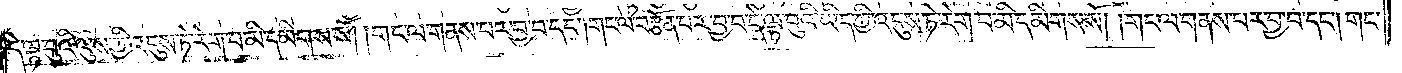དེ་ལྟ་བུའི་ལུས་ཀྱི་འདུས་ཏེ་རེག་པ་མི་དམིགས་སོ། །གང་ལ་གནས་པར་བྱ་བ་དང༌། གང་ལ་བརྩོན་པར་བྱ་བ་དེ་ལྟ་བུའི་ཡིད་ཀྱི་འདུས་ཏེ་རེག་པ་མི་དམིགས་སོ། །གང་ལ་གནས་པར་བྱ་བ་དང༌། གང་
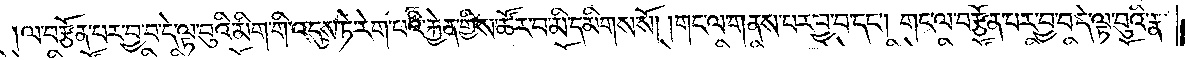ལ་བརྩོན་པར་བྱ་བ་དེ་ལྟ་བུའི་མིག་གི་འདུས་ཏེ་རེག་པའི་རྐྱེན་གྱིས་ཚོར་བ་མི་དམིགས་སོ། །གང་ལ་གནས་པར་བྱ་བ་དང༌། གང་ལ་བརྩོན་པར་བྱ་བ་དེ་ལྟ་བུའི་རྣ་
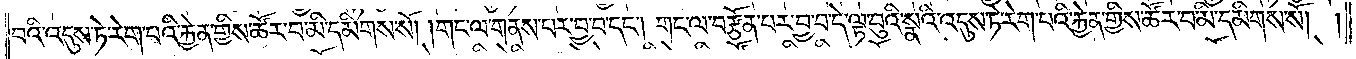བའི་འདུས་ཏེ་རེག་པའི་རྐྱེན་གྱིས་ཚོར་བ་མི་དམིགས་སོ། །གང་ལ་གནས་པར་བྱ་བ་དང༌། གང་ལ་བརྩོན་པར་བྱ་བ་དེ་ལྟ་བུའི་སྣའི་འདུས་ཏེ་རེག་པའི་རྐྱེན་གྱིས་ཚོར་བ་མི་དམིགས་སོ། །
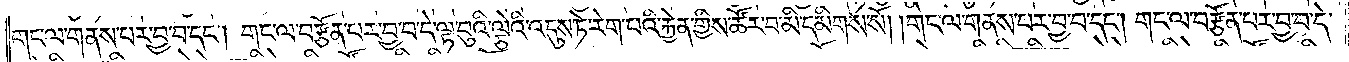གང་ལ་གནས་པར་བྱ་བ་དང༌། གང་ལ་བརྩོན་པར་བྱ་བ་དེ་ལྟ་བུའི་ལྕེའི་འདུས་ཏེ་རེག་པའི་རྐྱེན་གྱིས་ཚོར་བ་མི་དམིགས་སོ། །གང་ལ་གནས་པར་བྱ་བ་དང༌། གང་ལ་བརྩོན་པར་བྱ་བ་དེ་
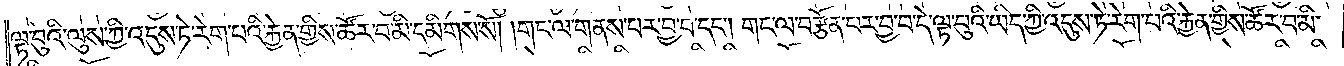ལྟ་བུའི་ལུས་ཀྱི་འདུས་ཏེ་རེག་པའི་རྐྱེན་གྱིས་ཚོར་བ་མི་དམིགས་སོ། །གང་ལ་གནས་པར་བྱ་བ་དང༌། གང་ལ་བརྩོན་པར་བྱ་བ་དེ་ལྟ་བུའི་ཡིད་ཀྱི་འདུས་ཏེ་རེག་པའི་རྐྱེན་གྱིས་ཚོར་བ་མི་
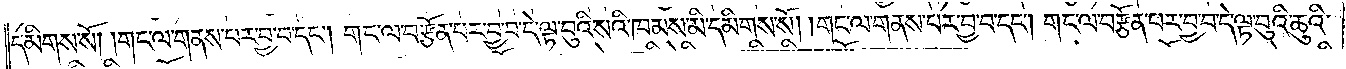དམིགས་སོ། །གང་ལ་གནས་པར་བྱ་བ་དང༌། གང་ལ་བརྩོན་པར་བྱ་བ་དེ་ལྟ་བུའི་སའི་ཁམས་མི་དམིགས་སོ། །གང་ལ་གནས་པར་བྱ་བ་དང༌། གང་ལ་བརྩོན་པར་བྱ་བ་དེ་ལྟ་བུའི་ཆུའི་
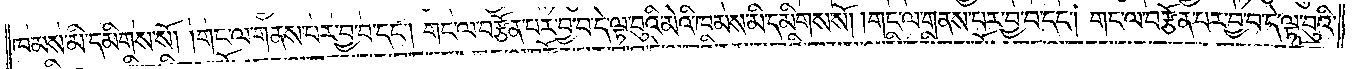ཁམས་མི་དམིགས་སོ། །གང་ལ་གནས་པར་བྱ་བ་དང༌། གང་ལ་བརྩོན་པར་བྱ་བ་དེ་ལྟ་བུའི་མེའི་ཁམས་མི་དམིགས་སོ། །གང་ལ་གནས་པར་བྱ་བ་དང༌། གང་ལ་བརྩོན་པར་བྱ་བ་དེ་ལྟ་བུའི་
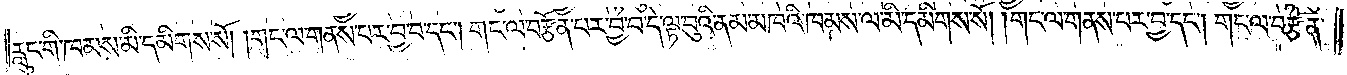རླུང་གི་ཁམས་མི་དམིགས་སོ། །གང་ལ་གནས་པར་བྱ་བ་དང༌། གང་ལ་བརྩོན་པར་བྱ་བ་དེ་ལྟ་བུའི་ནམ་མཁའི་ཁམས་མི་དམིགས་སོ། །གང་ལ་གནས་པར་བྱ་བ་དང༌། གང་ལ་བརྩོན་
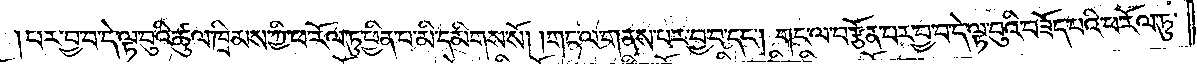པར་བྱ་བ་དེ་ལྟ་བུའི་ཚུལ་ཁྲིམས་ཀྱི་ཕ་རོལ་ཏུ་ཕྱིན་པ་མི་དམིགས་སོ། །གང་ལ་གནས་པར་བྱ་བ་དང༌། གང་ལ་བརྩོན་པར་བྱ་བ་དེ་ལྟ་བུའི་བཟོད་པའི་ཕ་རོལ་ཏུ་
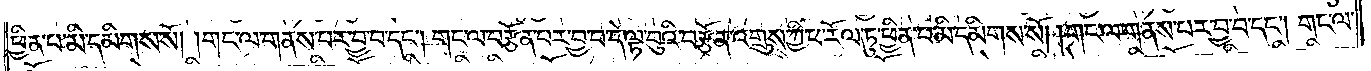ཕྱིན་པ་མི་དམིགས་སོ། །གང་ལ་གནས་པར་བྱ་བ་དང༌། གང་ལ་བརྩོན་པར་བྱ་བ་དེ་ལྟ་བུའི་བརྩོན་འགྲུས་ཀྱི་ཕ་རོལ་ཏུ་ཕྱིན་པ་མི་དམིགས་སོ། །གང་ལ་གནས་པར་བྱ་བ་དང༌། གང་ལ་
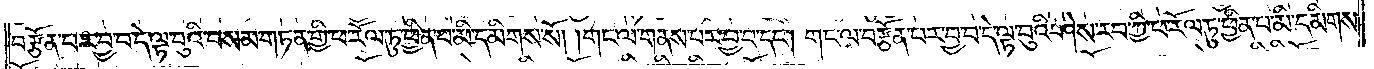བརྩོན་པར་བྱ་བ་དེ་ལྟ་བུའི་བསམ་གཏན་གྱི་ཕ་རོལ་ཏུ་ཕྱིན་པ་མི་དམིགས་སོ། །གང་ལ་གནས་པར་བྱ་བ་དང༌། གང་ལ་བརྩོན་པར་བྱ་བ་དེ་ལྟ་བུའི་ཤེས་རབ་ཀྱི་ཕ་རོལ་ཏུ་ཕྱིན་པ་མི་དམིགས་
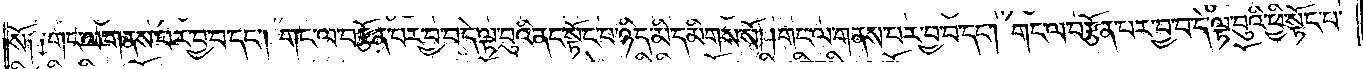སོ༑ ༑གང་ལ་གནས་པར་བྱ་བ་དང༌། གང་ལ་བརྩོན་པར་བྱ་བ་དེ་ལྟ་བུའི་ནང་སྟོང་པ་ཉིད་མི་དམིགས་སོ། །གང་ལ་གནས་པར་བྱ་བ་དང༌། གང་ལ་བརྩོན་པར་བྱ་བ་དེ་ལྟ་བུའི་ཕྱི་སྟོང་པ་
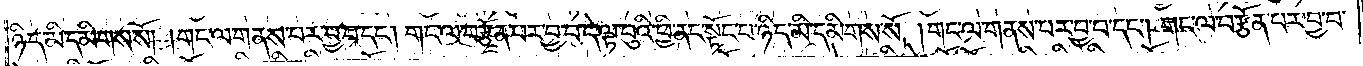ཉིད་མི་དམིགས་སོ། །གང་ལ་གནས་པར་བྱ་བ་དང༌། གང་ལ་བརྩོན་པར་བྱ་བ་དེ་ལྟ་བུའི་ཕྱི་ནང་སྟོང་པ་ཉིད་མི་དམིགས་སོ། །གང་ལ་གནས་པར་བྱ་བ་དང༌། གང་ལ་བརྩོན་པར་བྱ་བ་
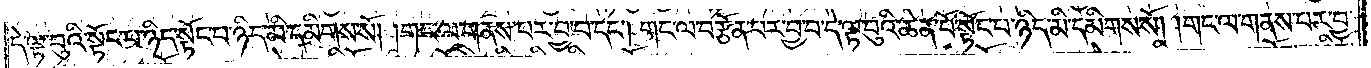དེ་ལྟ་བུའི་སྟོང་པ་ཉིད་སྟོང་པ་ཉིད་མི་དམིགས་སོ། །གང་ལ་གནས་པར་བྱ་བ་དང༌། གང་ལ་བརྩོན་པར་བྱ་བ་དེ་ལྟ་བུའི་ཆེན་པོ་སྟོང་པ་ཉིད་མི་དམིགས་སོ། །གང་ལ་གནས་པར་བྱ་
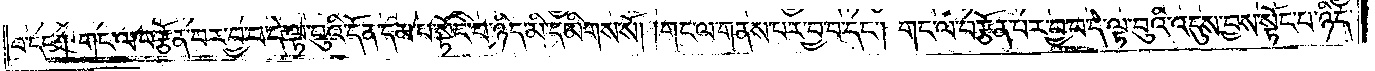བ་དང༌། གང་ལ་བརྩོན་པར་བྱ་བ་དེ་ལྟ་བུའི་དོན་དམ་པ་སྟོང་པ་ཉིད་མི་དམིགས་སོ། །གང་ལ་གནས་པར་བྱ་བ་དང༌། གང་ལ་བརྩོན་པར་བྱ་བ་དེ་ལྟ་བུའི་འདུས་བྱས་སྟོང་པ་ཉིད་
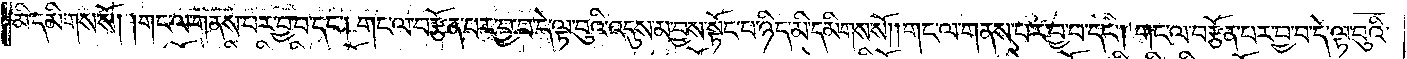མི་དམིགས་སོ། །གང་ལ་གནས་པར་བྱ་བ་དང༌། གང་ལ་བརྩོན་པར་བྱ་བ་དེ་ལྟ་བུའི་འདུས་མ་བྱས་སྟོང་པ་ཉིད་མི་དམིགས་སོ། །གང་ལ་གནས་པར་བྱ་བ་དང༌། གང་ལ་བརྩོན་པར་བྱ་བ་དེ་ལྟ་བུའི་
